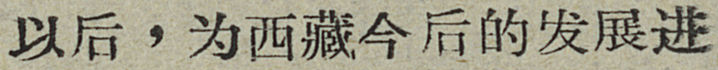以后，为西藏今后的发展进
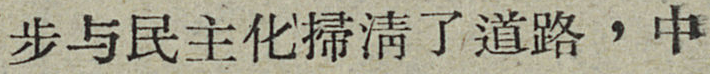步与民主化掃清了道路，中
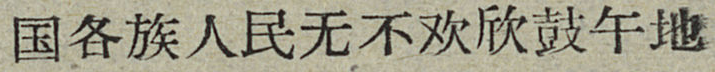国各族人民无不欢欣鼓午地
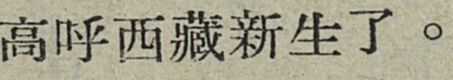高呼西藏新生了。
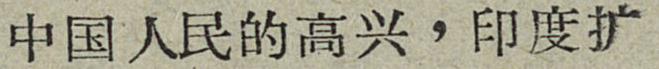中国人民的高兴，印度扩
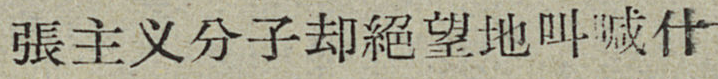張主义分子却絕望地叫喊什
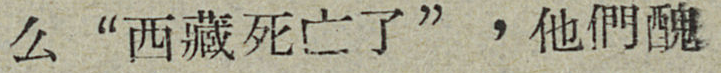么“西藏死亡了”，他們醜
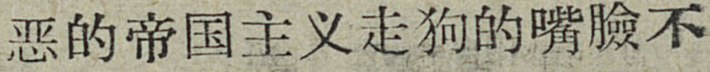恶的帝国主义走狗的嘴臉不
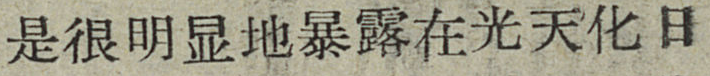是很明显地暴露在光天化日
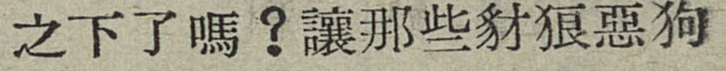之下了嗎？讓那些豺狼惡狗
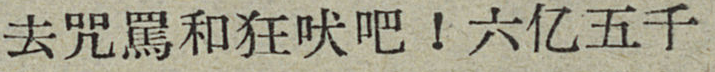去咒罵和狂吠吧！六亿五千
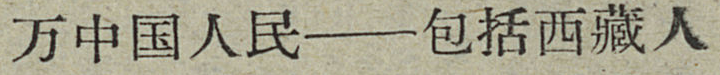万中国人民——包括西藏人
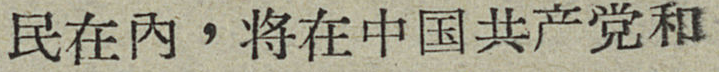民在内，将在中国共产党和
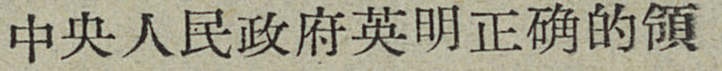中央人民政府英明正确的領
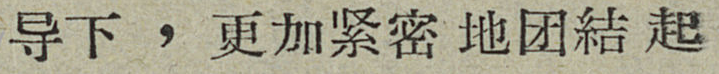导下，更加紧密地团結起
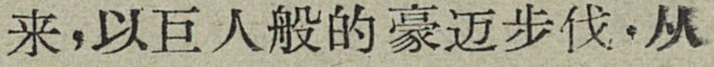来，以巨人般的豪迈步伐，从
